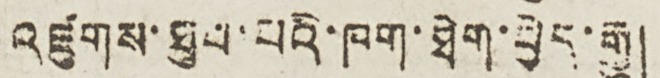འཛུགས་ཐུབ་པའི་ཁག་ཐེག་བྱེད་རྒྱུ།
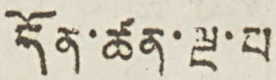དོན་ཚན་ལྔ་པ།
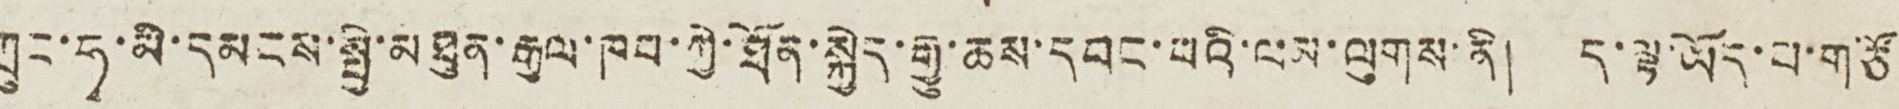ཀྲུང་ཧྭ་མི་དམངས་སྤྱི་མཐུན་རྒྱལ་ཁབ་ཀྱི་ཐོན་སྐྱེད་རྒྱུ་ཆས་དབང་པའི་ལམ་ལུགས་ནི། ད་ལྟ་ཡོད་པ་གཙོ
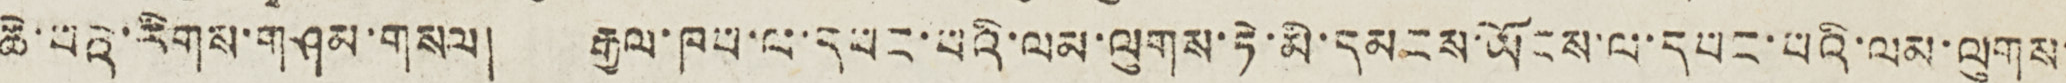ཆེ་བའི་རིགས་གཤམ་གསལ། རྒྱལ་ཁབ་ལ་དབང་པའི་ལམ་ལུགས་ཏེ་མི་དམངས་ཡོངས་ལ་དབང་པའི་ལམ་ལུགས་
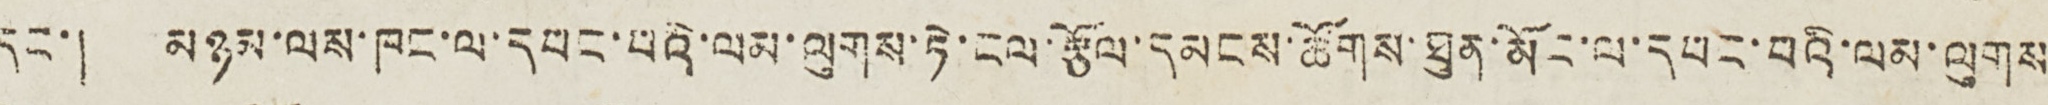དང་། མཉམ་ལས་ཁང་ལ་དབང་པའི་ལམ་ལུགས་ཏེ་ངལ་རྩོལ་དམངས་ཚོགས་ཐུན་མོང་ལ་དབང་བའི་ལམ་ལུགས།
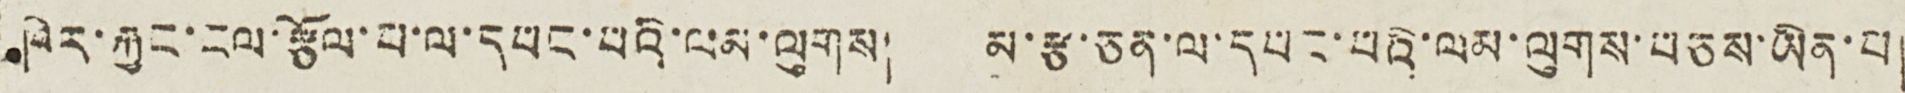ཁེར་རྐྱང་ངལ་རྩོལ་པ་ལ་དབང་པའི་ལམ་ལུགས། མ་རྩ་ཅན་ལ་དབང་པའི་ལམ་ལུགས་བཅས་ཡིན་པ།
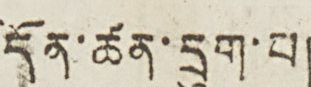དོན་ཚན་དྲུག་པ།
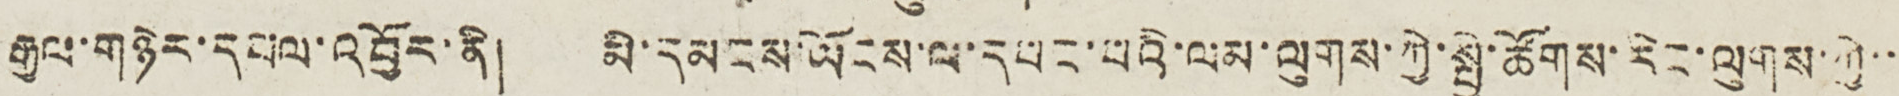རྒྱལ་གཉེར་དཔལ་འབྱོར་ནི། མི་དམངས་ཡོངས་ལ་དབང་པའི་ལམ་ལུགས་ཀྱི་སྤྱི་ཚོགས་རིང་ལུགས་ཀྱི་་་
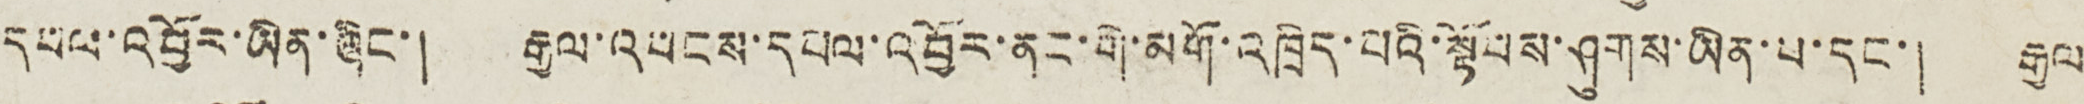དཔལ་འབྱོར་ཡིན་ཞིང་། རྒྱལ་འབངས་དཔལ་འབྱོར་ནང་གི་མགོ་འཁྲིད་པའི་སྟོབས་ཤུགས་ཡིན་པ་དང་། རྒྱལ
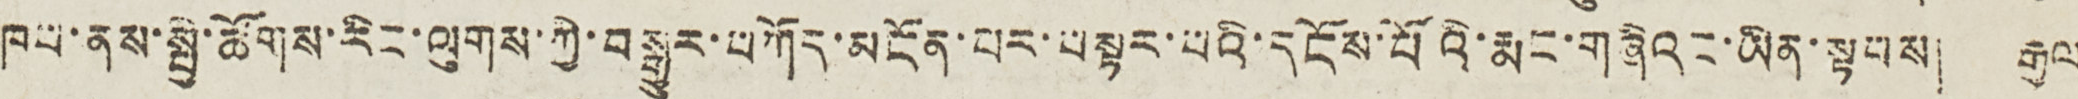ཁབ་ནས་སྤྱི་ཚོགས་རིང་ལུགས་ཀྱི་བསྒྱུར་བཀོད་མངོན་པར་བསྟར་པའི་དངོས་པོའི་རྨང་གཞིའང་ཡིན་སྟབས། རྒྱལ
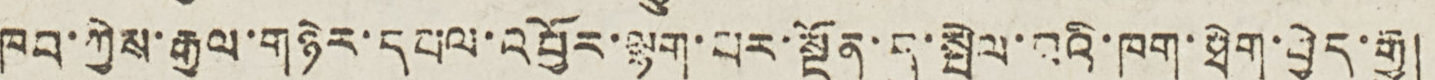ཁབ་ཀྱིས་རྒྱལ་གཉེར་དཔལ་འབྱོར་ལྷག་པར་སྔོན་དུ་སྤེལ་བའི་ཁག་ཐེག་བྱེད་རྒྱུ།
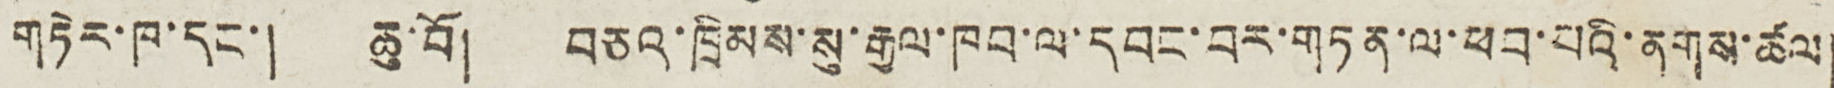གཏེར་ཁ་དང་། ཆུ་བོ། བཅའ་ཁྲིམས་སུ་རྒྱལ་ཁབ་ལ་དབང་བར་གཏན་ལ་ཕབ་པའི་ནགས་ཚལ།
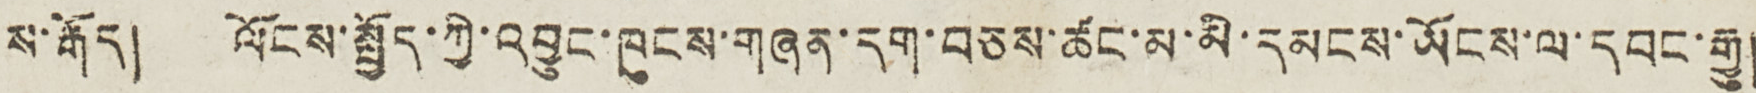ས་རྒོད། ལོངས་སྤྱོད་ཀྱི་འབྱུང་ཁུངས་གཞན་དག་བཅས་ཚང་མ་མི་དམངས་ཡོངས་ལ་དབང་རྒྱུ།
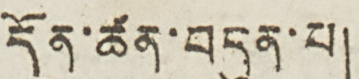དོན་ཚན་བདུན་པ།
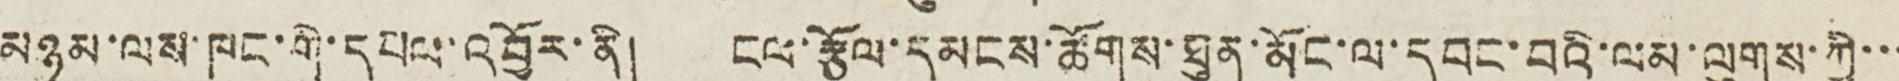མཉམ་ལས་ཁང་གི་དཔལ་འབྱོར་ནི། ངལ་རྩོལ་དམངས་ཚོགས་ཐུན་མོང་ལ་དབང་བའི་ལམ་ལུགས་ཀྱི་་་
